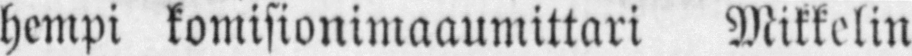hempi komisionimaaumittari Mikkelin
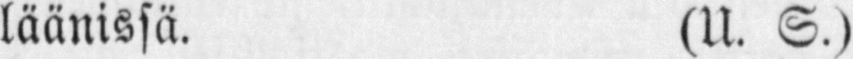läänissä. (U. S.)
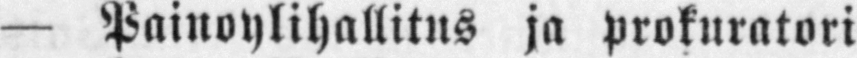— Painoylihallitus ja Prokuratori
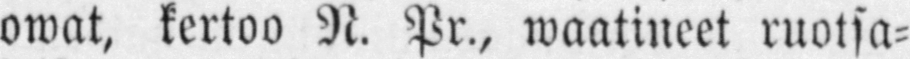owat, kertoo N. Pr., waatineet ruotsa-
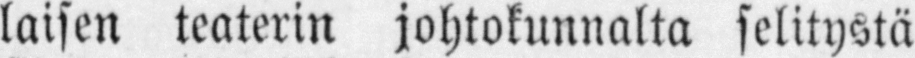laisen teaterin johtokunnalta selitystä
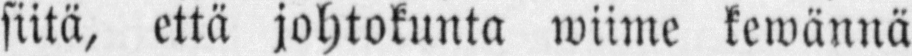siitä, että johtokunta wiime kewännä
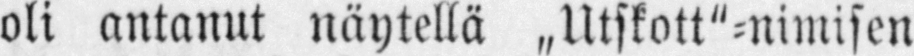oli antanut näytellä „Utskott"-nimisen
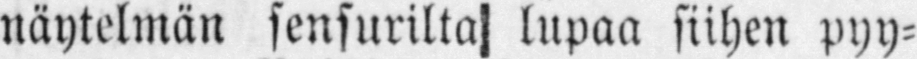näytelmän sensurilta lupaa siihen pyy-
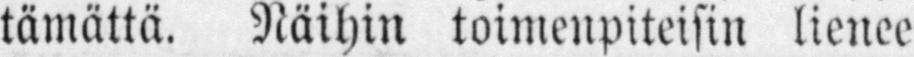tämättä. Näihin toimenpiteisin lienee
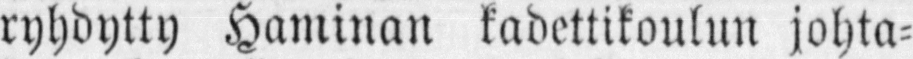ryhdytty Haminan kadettikoulun johta-
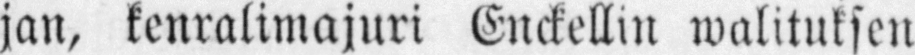jan, kenralimajuri Enckellin walituksen
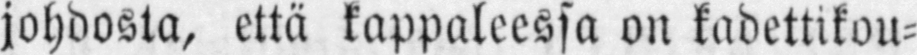johdosta, että kappaleessa on kadettikou-
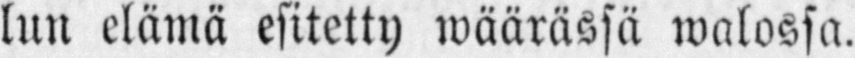lun elämä esitetty wäärässä walossa.
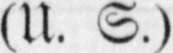(U. S.)
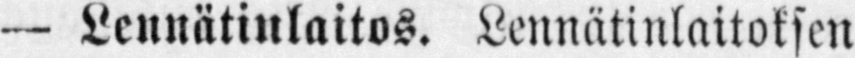— Lennätinlaitos. Lennätinlaitoksen
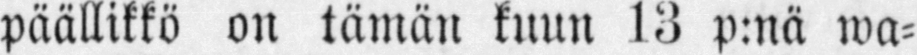päällikkö on tämän kuun 13 p:nä wa-
